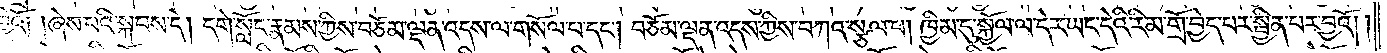བགྱིའོ། །ཞེས་པའི་སྐབས་དེ། དགེ་སློང་རྣམས་ཀྱིས་བཅོམ་ལྡན་འདས་ལ་གསོལ་པ་དང༌། བཅོམ་ལྡན་འདས་ཀྱིས་བཀའ་སྩལ་པ། ཁྱིམ་དུ་སྐྱོལ་ལ་དེར་ཡང་དེའི་རིམ་གྲོ་བྱེད་པར་སྦྱིན་པར་བྱའོ། །
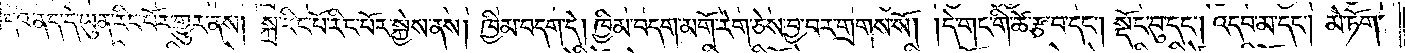དེའི་ནད་དེ་ཡུན་རིང་པོར་གྱུར་ནས། སྐྲ་རིང་པོར་རིང་པོར་སྐྱེས་ནས། ཁྱིམ་བདག་དེ། ཁྱིམ་བདག་མགོ་རེག་ཅེས་བྱ་བར་གྲགས་སོ། །དེ་གང་གི་ཚེ་རྩ་བ་དང༌། སྡོང་བུ་དང༌། འདབ་མ་དང༌། མེ་ཏོག་
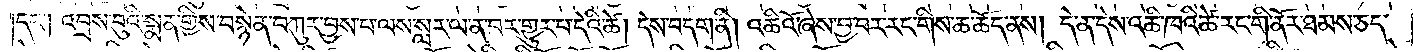དང༌། འབྲས་བུའི་སྨན་གྱིས་བསྙེན་བཀུར་བྱས་པ་ལས་སླར་ལ་ན་བར་གྱུར་པ་དེའི་ཚེ། དེས་བདག་ནི། འཆིའོ་ཞེས་བྱ་བར་རང་གིས་ཆ་ཆོད་ནས། དེ་ན་དེས་འཆི་ཁའི་ཚེ་རང་གི་ནོར་ཐམས་ཅད་
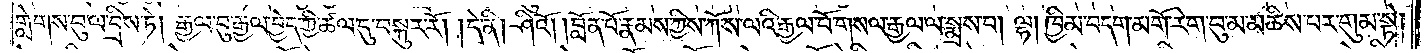གླེགས་བུ་ལ་བྲིས་ཏེ། རྒྱལ་བུ་རྒྱལ་བྱེད་ཀྱི་ཚལ་དུ་བསྐུར་རོ། །དེ་ནི། ཤིའོ། །བློན་པོ་རྣམས་ཀྱིས་ཀོ་ས་ལའི་རྒྱལ་པོ་གསལ་རྒྱལ་ལ་སྨྲས་པ། ལྷ། ཁྱིམ་བདག་མགོ་རེག་བུ་མ་མཆིས་པར་གུམ་སྟེ།
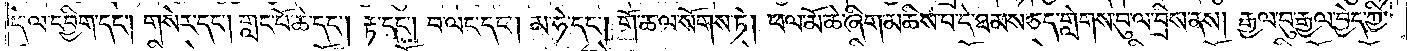དེ་ལ་དབྱིག་དང༌། གསེར་དང༌། གླང་པོ་ཆེ་དང༌། རྟ་དང༌། བ་ལང་དང༌། མ་ཧེ་དང༌། གོ་ཆ་ལ་སོགས་ཏེ། ཕལ་མོ་ཆེ་ཞིག་མཆིས་པ་དེ་ཐམས་ཅད་གླེགས་བུ་ལ་བྲིས་ནས། རྒྱལ་བུ་རྒྱལ་བྱེད་ཀྱི་
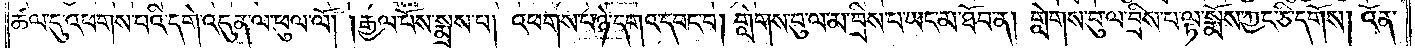ཚལ་དུ་འཕགས་པའི་དགེ་འདུན་ལ་ཕུལ་ལོ། །རྒྱལ་པོས་སྨྲས་པ། འཕགས་པ་ཉེ་དགའ་དབང་བ། གླེགས་བུ་ལ་མ་བྲིས་པ་ཡང་མ་ཐོབ་ན། གླེགས་བུ་ལ་བྲིས་པ་ལྟ་སྨོས་ཀྱང་ཅི་དགོས། འོན་
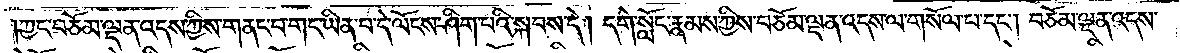།ཀྱང་བཅོམ་ལྡན་འདས་ཀྱིས་གནང་བ་གང་ཡིན་པ་དེ་ལོངས་ཤིག་པའི་སྐབས་དེ། དགེ་སློང་རྣམས་ཀྱིས་བཅོམ་ལྡན་འདས་ལ་གསོལ་པ་དང༌། བཅོམ་ལྡན་འདས་
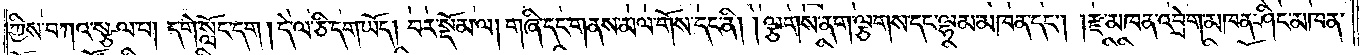ཀྱིས་བཀའ་སྩལ་པ། དགེ་སློང་དག། དེ་ལ་ཅི་དག་ཡོད། བར་སྡོམ་ལ། གཞི་དང་གནས་མལ་གོས་དང་ནི། །ལྕགས་ནག་ལྕགས་དང་ལྷམ་མཁན་དང༌། །རྫ་མཁན་འབྲེག་མཁན་ཤིང་མཁན་
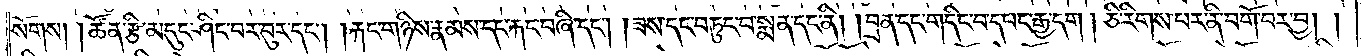སོགས། །ཚོན་རྩི་མདུང་ཤིང་བར་བུར་དང༌། །རྐང་གཉིས་རྣམས་དང་རྐང་བཞི་དང༌། །ཟས་དང་བཏུང་བ་སྨན་དང་ནི། །བྲན་དང་གདང་བ་དབང་རྒྱ་དག །ཅི་རིགས་པར་ནི་བགོ་བར་བྱ། །
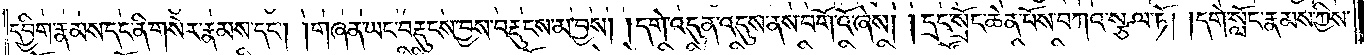དབྱིག་རྣམས་དང་ནི་གསེར་རྣམས་དང༌། །གཞན་ཡང་བརྡུངས་བྱས་བརྡུངས་མ་བྱས། །དགེ་འདུན་འདུས་ནས་བགོ་འོ་ཞེས། །དྲང་སྲོང་ཆེན་པོས་བཀའ་སྩལ་ཏོ། །དགེ་སློང་རྣམས་ཀྱིས་
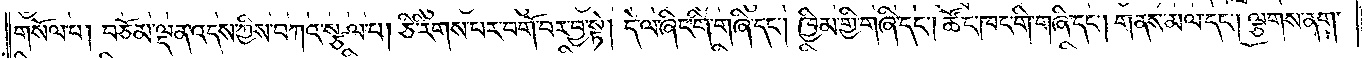གསོལ་པ། བཅོམ་ལྡན་འདས་ཀྱིས་བཀའ་སྩལ་པ། ཅི་རིགས་པར་བགོ་བར་བྱ་སྟེ། དེ་ལ་ཞིང་གི་གཞི་དང༌། ཁྱིམ་གྱི་གཞི་དང༌། ཚོང་ཁང་གི་གཞི་དང༌། གནས་མལ་དང༌། ལྕགས་ནག་
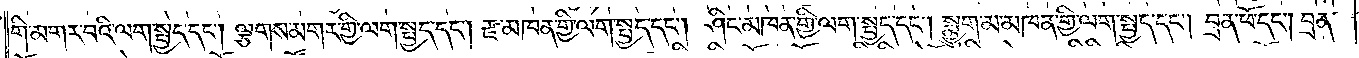གི་མགར་བའི་ལག་སྤྱད་དང༌། ལྕགས་མགར་གྱི་ལག་སྤྱད་དང༌། རྫ་མཁན་གྱི་ལག་སྤྱད་དང༌། ཤིང་མཁན་གྱི་ལག་སྤྱད་དང༌། སྨྱུག་མ་མཁན་གྱི་ལག་སྤྱད་དང༌། བྲན་ཕོ་དང༌། བྲན་
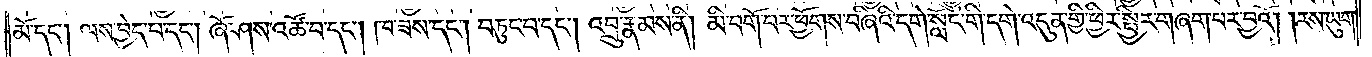མོ་དང༌། ལས་བྱེད་པ་དང༌། ཞོ་ཤས་འཚོ་བ་དང༌། ཁ་ཟས་དང༌། བཏུང་བ་དང༌། འབྲུ་རྣམས་ནི། མི་བགོ་བར་ཕྱོགས་བཞིའི་དགེ་སློང་གི་དགེ་འདུན་གྱི་ཕྱིར་སྤྱིར་གཞག་པར་བྱའོ། །རས་ཡུག་
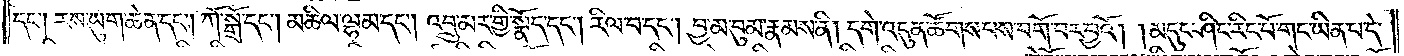དང༌། རས་ཡུག་ཆེན་དང༌། ཀོ་སྒྲོ་དང༌། མཆིལ་ལྷམ་དང༌། འབྲུ་མར་གྱི་སྣོད་དང༌། རིལ་བ་དང༌། བྱ་མ་བུམ་རྣམས་ནི། དགེ་འདུན་ཚོགས་པས་བགོ་བར་བྱའོ། །མདུང་ཤིང་རིང་པོ་གང་ཡིན་པ་དེ་
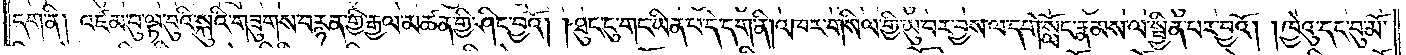དག་ནི། འཛམ་བུ་ལྟ་བུའི་སྐུའི་གཟུགས་བརྙན་གྱི་རྒྱལ་མཚན་གྱི་ཤིང་བྱའོ། །ཐུང་ངུ་གང་ཡིན་པ་དེ་དག་ནི། འཁར་གསིལ་གྱི་ཡུ་བར་བྱས་ལ་དགེ་སློང་རྣམས་ལ་སྦྱིན་པར་བྱའོ། །ཁྱེའུ་དང་བུ་མོ་
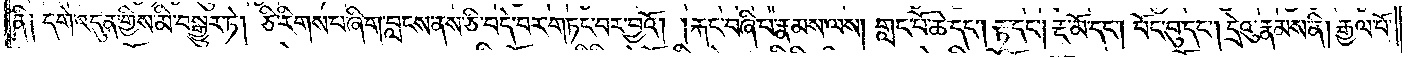ནི། དགེ་འདུན་གྱིས་མི་བསྒྱུར་ཏེ། ཅི་རིགས་པ་ཞིག་བླངས་ནས་ཅི་བདེ་བར་གཏང་བར་བྱའོ། །རྐང་བཞི་པ་རྣམས་ལས། གླང་པོ་ཆེ་དང༌། རྟ་དང༌། རྔ་མོ་དང༌། བོང་བུ་དང༌། དྲེའུ་རྣམས་ནི། རྒྱལ་པོ་
